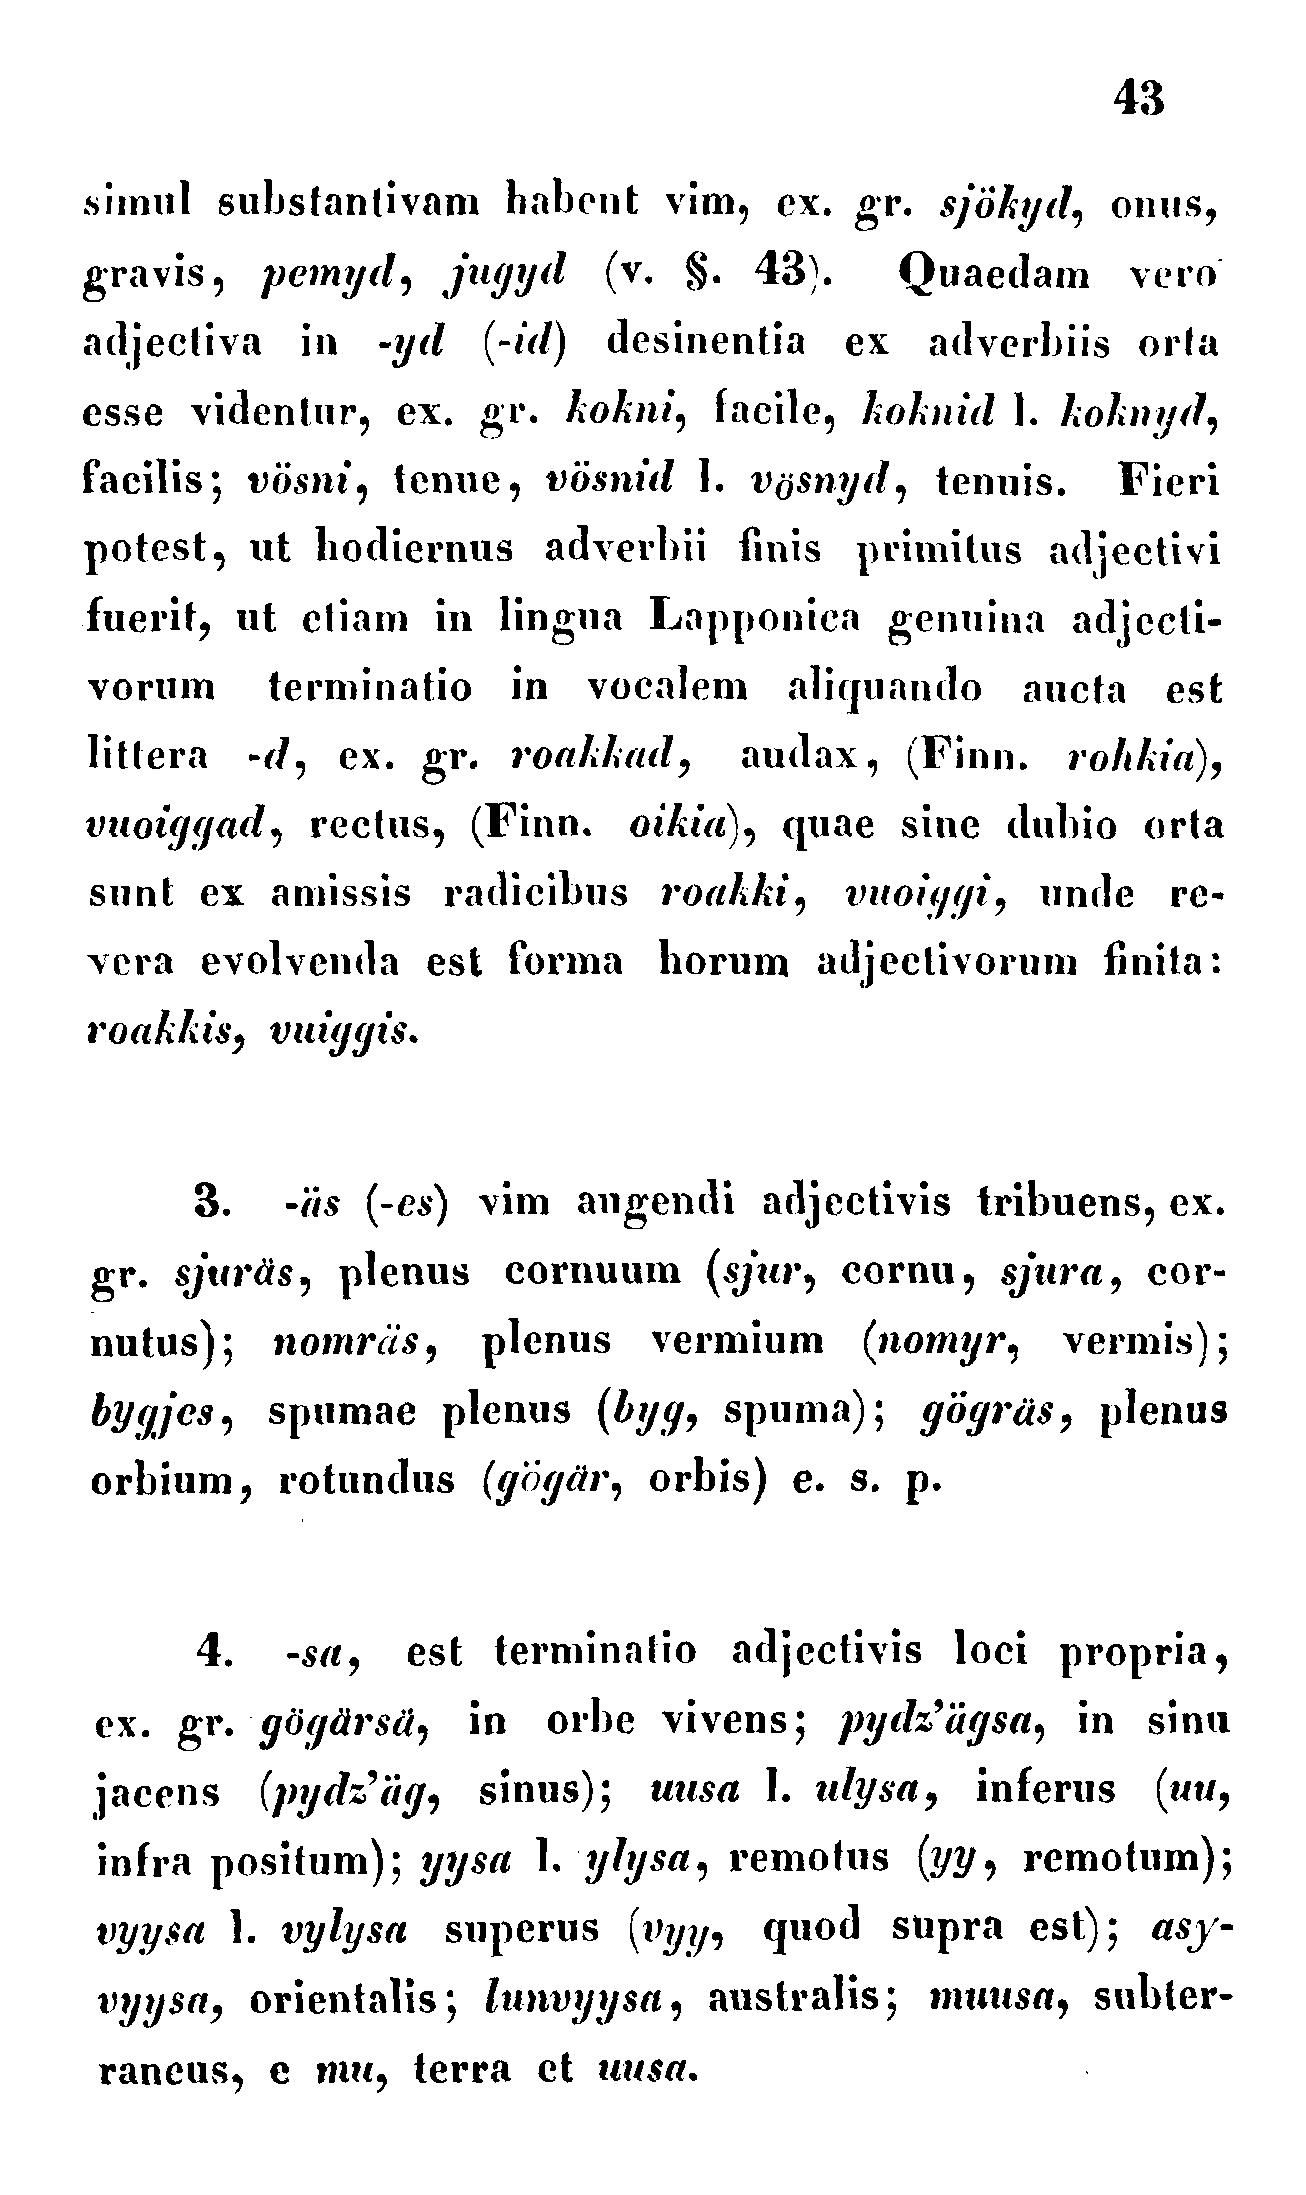43
simul substantivam habent vim, ex. gr. sjökyd, onus,
gravis, pemyd, jugyd (v. §. 43). Quaedam vero
adjectiva in -yd (-id) desinentia ex adverbiis orta
esse videntur, ex. gr. kokni, facile, kohnid l. koknyd,
facilis; vösni, tenue, vösnid l. vösnyd, tenuis. Fieri
potest, ut hodiernus adverbii finis primitus adjectivi
fuerit, ut etiam in lingua Lapponica genuina adjecti-
vorum terminatio in vocalem aliquando aucta est
littera -d, ex. gr. roakkad, audax, (Finn. rohkia),
vuoiggad, rectus, (Finn. oikia), quae sine dubio orta
sunt ex amissis radicibus roakki, vuoiggi, unde re-
vera evolvenda est forma horum adjectivorum finita:
roakkis, vuiggis.
3. -äs (-es) vim angendi adjectivis tribuens, ex.
gr. sjuräs, plenus cornuum (sjur, cornu, sjura, cor-
nutus); nomräs, plenus vermium (nomyr, vermis);
bygjes, spumae plenus (byg, spuma); gögräs, plenus
orbium, rotundus (gögär, orbis) e. s. p.
4. -sa, est terminatio adjectivis loci propria,
ex. gr. gögärsä, in orbe vivens; pydz'ägsa, in sinu
jacens (pydz'äg, sinus); uusa l. ulysa, inferus (uu,
infra positum); yysa l. ylysa, remotus (yy, remotum);
vyysa l. vylysa superus (vyy, quod supra est); asy-
vyysa, orientalis; lunvyysa, australis; muusa, subter-
raneus, e mu, terra et uusa.
